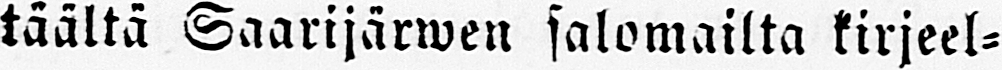täältä Saarijärwen salomailta kirjeel-
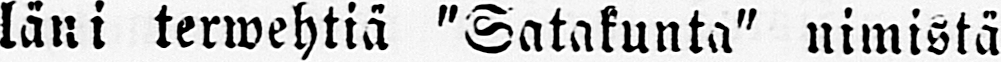läni terwehtiä "Satakunta" nimistä
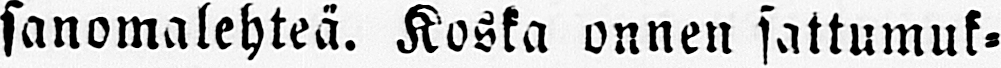sanomalehteä. Koska onnen sattumuk-
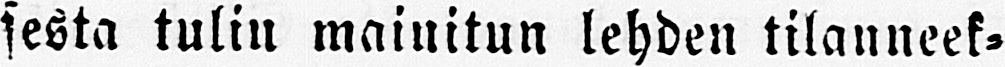sesta tulin mainitun lehden tilanneek-
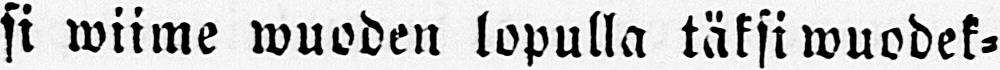si wiime wuoden lopulla täksi wuodek-
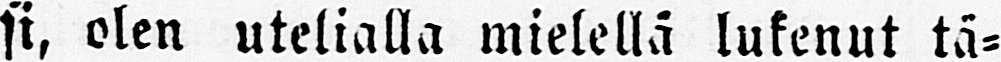si, olen utelialla mielellä lukenut tä-
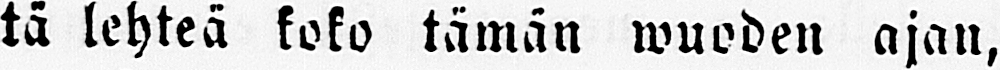tä lehteä koko tämän wuoden ajan,
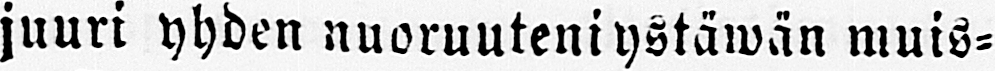juuri yhden nuoruuteniystäwän muis-
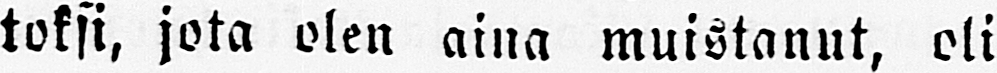toksi, jota olen aina muistanut, oli
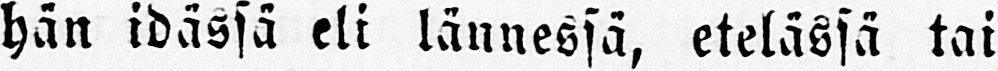hän idässä eli lännessä, etelässä tai
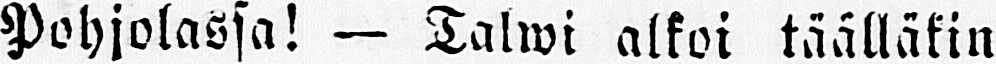Pohjolassa! — Talwi alkoi täälläkin
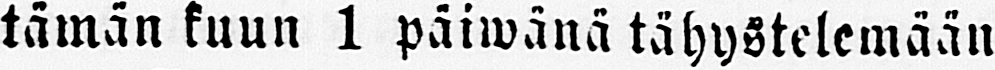tämän kuun 1 päwänä tähystelemään
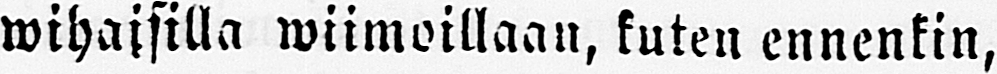wihaisilla wiimoillaan, kuten ennenkin,
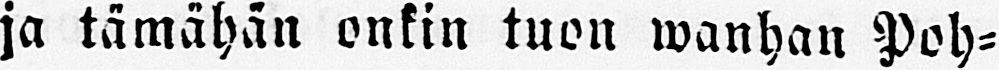ja tämähän onkin tuon wanhan Poh-
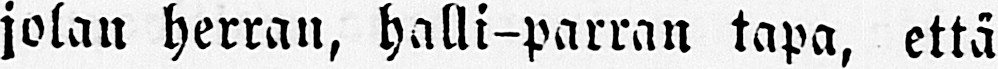jolan herran, halli-parran tapa, että
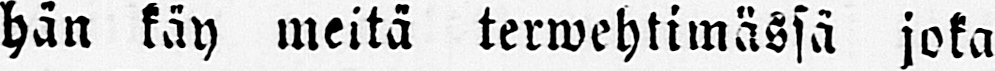hän käy meitä terwehtimässä joka
